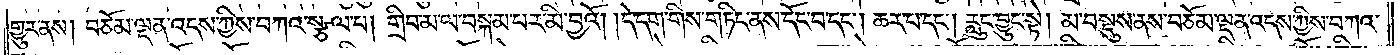གྱུར་ནས། བཅོམ་ལྡན་འདས་ཀྱིས་བཀའ་སྩལ་པ། གྲིབ་མ་ལ་བསྐམ་པར་མི་བྱའོ། །དེ་དག་གིས་གཏིང་ནས་དོང་བ་དང༌། ཆར་པ་དང༌། རླུང་བྱུང་སྟེ། མ་བསྡུས་ནས་བཅོམ་ལྡན་འདས་ཀྱིས་བཀའ་
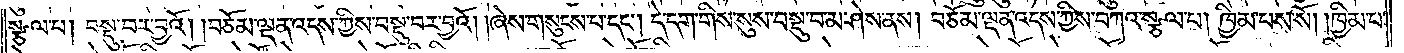སྩལ་པ། བསྡུ་བར་བྱའོ། །བཅོམ་ལྡན་འདས་ཀྱིས་བསྡུ་བར་བྱའོ། །ཞེས་གསུངས་པ་དང༌། དེ་དག་གིས་སུས་བསྡུ་བ་མ་ཤེས་ནས། བཅོམ་ལྡན་འདས་ཀྱིས་བཀའ་སྩལ་པ། ཁྱིམ་པས་སོ། །ཁྱིམ་པ་
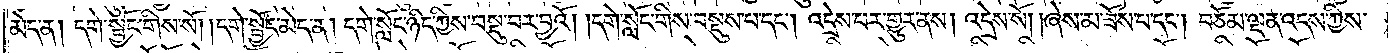མེད་ན། དགེ་སྦྱོང་གིས་སོ། །དགེ་སྦྱོང་མེད་ན། དགེ་སློང་ཉིད་ཀྱིས་བསྡུ་བར་བྱའོ། །དགེ་སློང་གིས་བསྡུས་པ་དང༌། འདྲེས་པར་གྱུར་ནས། འདྲེས་སོ། །ཞེས་མ་ཟོས་པ་དང༌། བཅོམ་ལྡན་འདས་ཀྱིས་
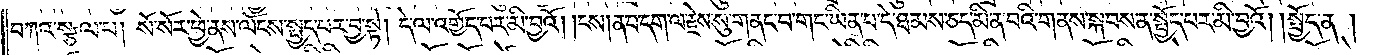བཀའ་སྩལ་པ། སོ་སོར་ཕྱེ་ནས་ལོངས་སྤྱད་པར་བྱ་སྟེ། དེ་ལ་འགྱོད་པར་མི་བྱའོ། །ངས། ན་བ་དག་ལ་རྗེས་སུ་གནང་བ་གང་ཡིན་པ་དེ་ཐམས་ཅད་མི་ན་བའི་གནས་སྐབས་ན་སྤྱོད་པར་མི་བྱའོ། །སྤྱོད་ན།
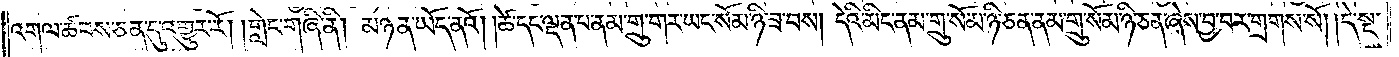འགལ་ཚབས་ཅན་དུ་འགྱུར་རོ། །གླེང་གཞི་ནི། མཉན་ཡོད་ནའོ། །ཚེ་དང་ལྡན་པ་ནམ་གྲུ་གར་ཡང་སོམ་ཉི་ཟ་བས། དེའི་མིང་ནམ་གྲུ་སོམ་ཉི་ཅན་ནམ་གྲུ་སོམ་ཉི་ཅན་ཞེས་བྱ་བར་གྲགས་སོ། །དེ་སྔ་
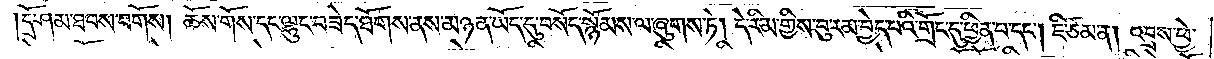དྲོ་ཤམ་ཐབས་བགོས། ཆོས་གོས་དང་ལྷུང་བཟེད་ཐོགས་ནས་མཉན་ཡོད་དུ་བསོད་སྙོམས་ལ་ཞུགས་ཏེ། དེ་རིམ་གྱིས་བུ་རམ་བྱེད་པའི་གྲོང་དུ་ཕྱིན་པ་དང༌། ཇི་ཙམ་ན། འབྲས་ཕྱེ་
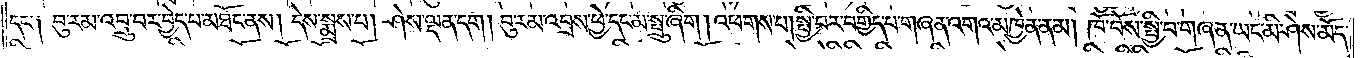དང་༑  བུ་རམ་འབྲུ་བར་བྱེད་པ་མཐོང་ནས། དེས་སྨྲས་པ། ཤེས་ལྡན་དག། བུ་རམ་འབྲས་ཕྱེ་དང་མ་སྦྲུ་ཞིག །འཕགས་པ། སྤྱི་བར་བགྱིད་པ་གཞན་འགའ་མཁྱེན་ནམ། ཁོ་བོས་སྤྱི་བ་གཞན་ཡང་མི་ཤེས་མོད་
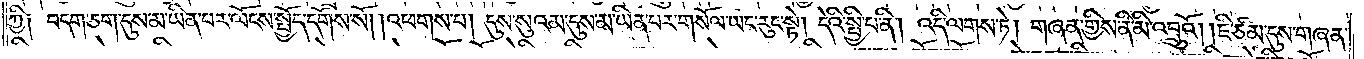ཀྱི ༑བདག་ཅག་དུས་མ་ཡིན་པར་ལོངས་སྤྱོད་དགོས་སོ། །འཕགས་པ། དུས་སུའམ་དུས་མ་ཡིན་པར་གསོལ་ཡང་རུང་སྟེ། དེའི་སྤྱི་པ་ནི། འདི་ལགས་ཏེ། གཞན་གྱིས་ནི་མི་འབྲུའོ། །ཇི་ཙམ་དུས་གཞན་
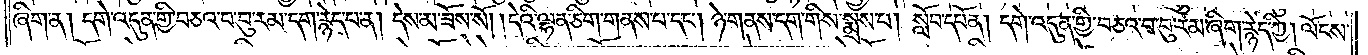ཞིག་ན། དགེ་འདུན་གྱི་བཅའ་བ་བུ་རམ་དག་རྙེད་པ་ན། དེས་མ་ཟོས་སོ། །དེའི་ལྷན་ཅིག་གནས་པ་དང༌། ཉེ་གནས་དག་གིས་སྨྲས་པ། སློབ་དཔོན། དགེ་འདུན་གྱི་བཅའ་བ་བུ་རམ་ཞིག་རྙེད་ཀྱི། ལོངས་
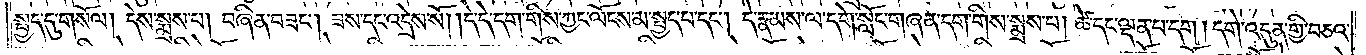སྤྱད་དུ་གསོལ། དེས་སྨྲས་པ། བཞིན་བཟང༌། ཟས་དང་འདྲེས་སོ། །དེ་དེ་དག་གིས་ཀྱང་ལོངས་མ་སྤྱད་པ་དང༌། དེ་རྣམས་ལ་དགེ་སློང་གཞན་དག་གིས་སྨྲས་པ། ཚེ་དང་ལྡན་པ་དག །དགེ་འདུན་གྱི་བཅའ་
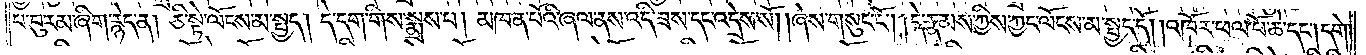པ་བུ་རམ་ཞིག་རྙེད་ན། ཅི་སྟེ་ལོངས་མ་སྤྱད། དེ་དག་གིས་སྨྲས་པ། མཁན་པོའི་ཞལ་ནས་འདི་ཟས་དང་འདྲེས་སོ། །ཞེས་གསུང་ངོ༌། །དེ་རྣམས་ཀྱིས་ཀྱང་ལོངས་མ་སྤྱད་དོ། །འཁོར་ཕལ་ཕོ་ཆེ་དང༌། དགེ་
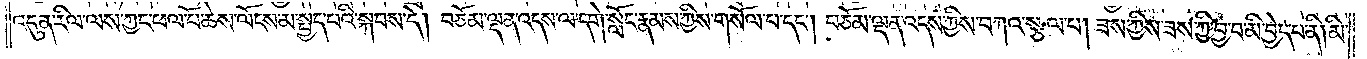འདུན་རིལ་ལས་ཀྱང་ཕལ་པོ་ཆེས་ལོངས་མ་སྤྱད་པའི་སྐབས་དེ། བཅོམ་ལྡན་འདས་ལ་དགེ་སློང་རྣམས་ཀྱིས་གསོལ་པ་དང༌། བཅོམ་ལྡན་འདས་ཀྱིས་བཀའ་སྩལ་པ། ཟས་ཀྱིས་ཟས་ཀྱི་བྱ་བ་མི་བྱེད་པ་ནི། མི་
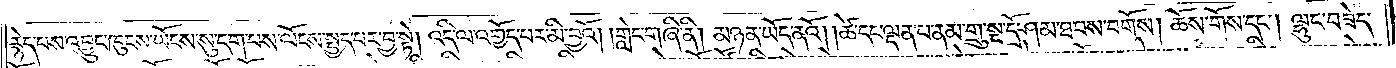རྙེད་པས་འབྱུང་ཁུངས་ཡོངས་སུ་དག་པས་ལོངས་སྤྱད་པར་བྱ་སྟེ། འདི་ལ་འགྱོད་པར་མི་བྱའོ། །གླེང་གཞི་ནི། མཉན་ཡོད་ནའོ། །ཚེ་དང་ལྡན་པ་ནམ་གྲུ་སྔ་དྲོ་ཤམ་ཐབས་བགོས། ཆོས་གོས་དང༌། ལྷུང་བཟེད་
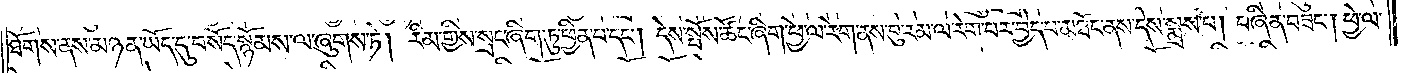ཐོགས་ནས་མཉན་ཡོད་དུ་བསོད་སྙོམས་ལ་ཞུགས་ཏེ། རིམ་གྱིས་སྲང་ཞིག་ཏུ་ཕྱིན་པ་དང༌། དེས་སྤོས་ཚོང་ཞིག་ཕྱེ་ལ་རེག་ནས་བུ་རམ་ལ་རེག་པར་བྱེད་པ་མཐོང་ནས་དེས་སྨྲས་པ། བཞིན་བཟང༌། ཕྱེ་ལ་
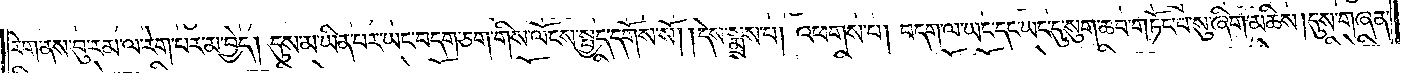རེག་ནས་བུ་རམ་ལ་རེག་པར་མ་བྱེད། དུས་མ་ཡིན་པར་ཡང་བདག་ཅག་གིས་ལོངས་སྤྱད་དགོས་སོ། །དེས་སྨྲས་པ། འཕགས་པ། བདག་ལ་ཡང་དང་ཡང་དུ་སུག་ཆབ་གཏོང་བ་སུ་ཞིག་མཆིས། དུས་གཞན་
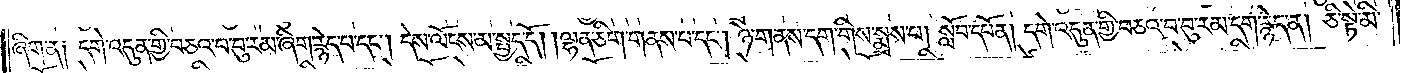ཞིག་ན༑ དགེ་འདུན་གྱི་བཅའ་བ་བུ་རམ་ཞིག་རྙེད་པ་དང༌། དེས་ལོངས་མ་སྤྱད་དོ། །ལྷན་ཅིག་གནས་པ་དང༌། ཉེ་གནས་དག་གིས་སྨྲས་པ། སློབ་དཔོན། དགེ་འདུན་གྱི་བཅའ་བ་བུ་རམ་དག་རྙེད་ན། ཅི་སྟེ་མི་
